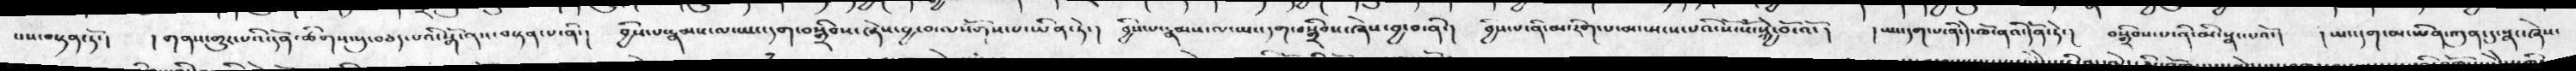པས་བསྟན་ཏོ་།  ། གནས་གྱུར་པའི་དོན་ཚིགས་སུ་བཅད་པའི་སྒོ་ནས་བསྟན་པ་ནི་།  བྱིས་པ་རྣམས་ལ་ཡང་དག་བསྒྲིབས་ཞེས་བྱ་བ་ལསོགས་པ་ཡིན་ཏེ་།  བྱིས་པ་རྣམས་ལ་ཡང་དག་སྒྲིབས་ཞེས་བྱ་བ་ནི་།  བྱིས་པ་ནི་མ་རིག་པ་མ་སྤངས་པའི་སོ་སོ་སྐྱེ་བོ་འོ་།  ། ཡང་དག་པ་ནི་དེ་ཁོ་ནའི་དོན་ཏེ་།  བསྒྲིབས་པ་ནི་མི་སྣང་པའོ་།  ། ཡང་དག་མ་ཡིན་ཀུན་དུ་སྣང་ཞེས་
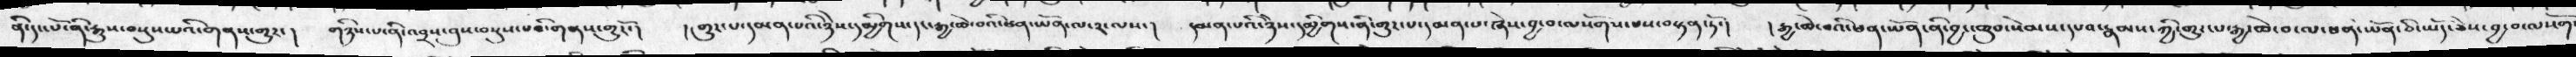ནི་དང་པོ་ནི་རྒྱུས་བསྡུས་པའི་གནས་གྱུར་།   གཉིས་པ་ནི་འབྲས་བུས་བསྡུས་པའི་གནས་གྱུརོ་།    ། གྱུར་པ་དམན་པའི་ཉེས་དམྱིགས་དང་རྒྱ་ཆེ་བའི་ཕན་ཡོན་ལ་༢་ལས་།    དམན་པའི་ཉེས་དམྱིགས་ནི་གྱུར་པ་དམན་པ་ཞེས་བྱ་བ་ལསོགས་པས་བསྟན་ཏོ་།   ། རྒྱ་ཆེ་བའི་ཕན་ཡོན་ནི་བྱང་ཆུབ་སེམས་དཔའ་རྣམས་ཀྱི་གྱུར་པ་རྒྱ་ཆེ་བ་ལ་ཕན་ཡོན་ཅི་ཡོད་ཅེས་བྱ་བ་ལསོགས
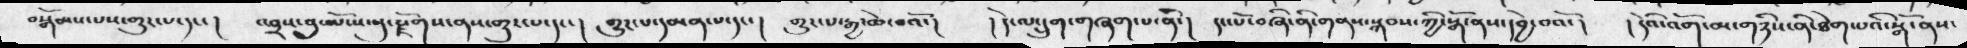བསྒོམས་པས་གྱུར་པ་དང་།   འབྲས་བུ་ཡོངས་སུ་རྗོགས་ནས་གྱུར་པ་དང་།   གྱུར་པ་དམན་པ་དང་།    གྱུར་པ་རྒྱ་ཆེ་བའོ་།    །  དེ་ལ་དྲུག་གཞག་པ་ནི་།   དང་པོ་བཞི་ནི་གནས་སྐབས་ཀྱི་སྒོ་ནས་དབྱེ་བའོ་།   ། དེའི་འོག་མ་གཉིས་ནི་ཐེག་པའི་སྒོ་ནས་
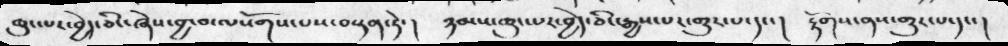ཆུང་པར་བྱེད་ཅིང་ཞེས་བྱ་བ་ལསོགས་པས་བསྟན་ཏེ་ །     ཉམས་ཆུང་པར་བྱེད་ཅིང་རྒྱས་པར་གྱུར་པ་དང་ །   རྟོགས་ནས་གྱུར་པ་དང་ །
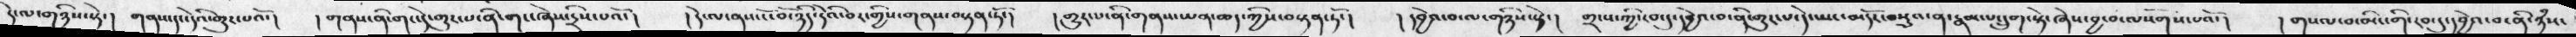དེ་ལ་གཉིས་སྟེ་།  གནས་དང་དེའི་གྱུར་པའོ་།   ། གནས་ནི་གང་དེ་གྱུར་པ་ནི་གང་ཞེས་དྲིས་པའོ་།    ། དེ་ལ་ནས་ངོ་བོ་ཉིད་དེའི་བར་གྱིས་གནས་བསྟན་ཏོ་།   ། གྱུར་པ་ནི་གནས་ཡན་ཆད་ཀྱིས་བསྟན་ཏོ་།     ། དབྱེའ་བ་ལ་གཉིས་སྟེ་།   གྲངས་ཀྱི་རབ་དུ་དབྱེའ་བ་ནི་གྱུར་པ་དེ་ཡང་མདོར་བསྡུའ་ན་རྣམ་པ་དྲུག་སྟེ་ཞེས་བྱ་བ་ལསོགས་པའོ་།     ། གསལ་བ་མིང་གི་རབ་དུདབྱེའ་བ་ནི་ཉཾས་
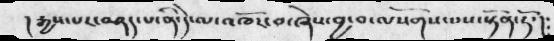།རྒྱས་པར་བཤད་པ་ནི་དེ་ལ་འཁོར་བ་ཞེས་བྱ་བ་ལསོགས་པས་སྟོན་ཏོ་།༴
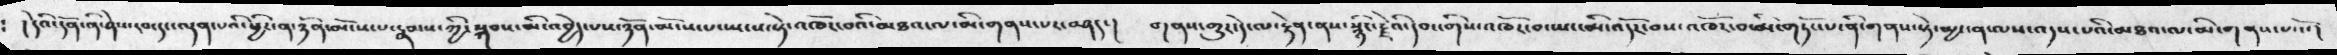༴ །དེའི་དོན་ནི་ཤེས་རབ་དང་ལྡན་པའི་ཕྱིར་ན་ཉོན་མོངས་པ་རྣམས་ཀྱི་སྐབས་མི་འབྱེད་པས་ཉོན་མོངས་པ་སྤངས་སྟེ་འཁོར་བའི་མཐའ་ལ་མི་གནས་པར་བཤད་། གནས་གྱུར་དེ་ལ་རྟེན་ནས་སྙིང་རྗེའི་དབང་གིས་འཁོར་བ་ཡང་མི་འདོར་བས་འཁོར་བ་མི་གཏོང་པ་ནི་གནས་སྟེ་མྱ་ངན་ལས་འདས་པའི་མཐའ་ལ་མི་གནས་པ་འོ་།
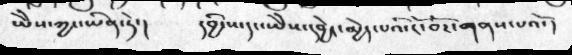ཡཻས་ཀྱང་ཡིན་ཏ་ེ།   དབྱིངས་དང་ཡཻས་དབྱེར་མྱེད་པའི་ངོ་བོར་གནས་པའོ་།
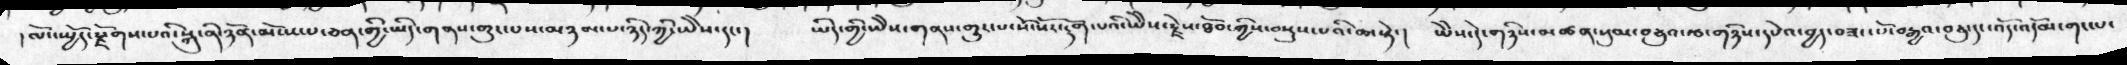།ལོང་སྤྱོད་རྫོགས་པའི་སྐུ་ནི་ཉོན་མོངས་པ་ཅན་གྱི་ཡིད་གནས་གྱུར་པས་མཉམ་པ་ཉིད་ཀྱི་ཡཻས་དང་།  ཡིད་གྱི་ཡཻས་གནས་གྱུར་པ་སོ་སོར་རྟོག་པའི་ཡཻས་རྗེས་ཐོབ་ཀྱི་བསྡུས་པའི་ཆ་སྟེ་།  ཡཻས་དེ་གཉིས་མཚན་སུམ་བཅུའ་རྩ་གཉིས་དཔེའ་བྱད་བཟང་པོ་བརྒྱའ་བཅུ་དང་འོད་འདོམ་གང་པ་
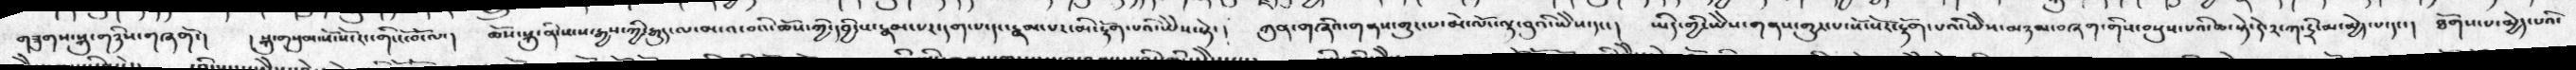གཟུགས་སྐུ་གཉིས་གཞགོ་།  །སྐུ་གསུམ་སོ་སོ་རང་གི་ངོ་བོ་ལ་།  ཆོས་སྐུ་ནི་སངས་རྒྱས་ཀྱི་རྒྱུད་ལ་མ་འ་བའི་ཆོས་ཀྱི་དབྱིངས་རྣམ་པར་དག་པ་དང་རྣམ་པར་མི་རྟོག་པའི་ཡཻས་དང་།  ཡིད་གྱི་ཡཻས་གནས་གྱུར་པ་སོ་སོར་རྟོག་པའི་ཡཻས་མཉམ་བཞག་གིས་བསུས་པའི་ཆ་སྟེ་དེ་༢་ཀ་དྲི་མ་མྱེད་པ་དང་།  ཐོགས་པ་མྱེད་པའི་
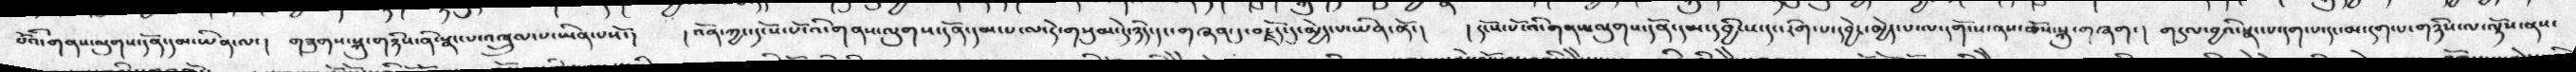བོའི་གནས་ལུགས་དོན་དམ་ཡིན་ལ་།    གཟུགས་སྐུ་གཉིས་སྣང་པ་འཁྲུལ་པ་ཡིན་པསོ་།   །འོན་ཀྱང་དངོས་པོ་འི་གནས་ལུགས་དོན་དམ་པ་ལ་དེ་གསུམ་དེ་ཉིད་དང་གཞན་དུ་བརྗོད་དུ་མྱེད་པ་ཡིན་ནོ་།  ། དངོས་པོ་འི་གནས་ལུགས་དོན་དམ་དབྱིངས་དང་རིག་པ་དབྱེར་མྱེད་པ་ལ་དགོངས་ནས་ཆོས་སྐུ་གཞག་།   གདུལ་བྱའི་སྣང་པ་དག་པ་དང་མ་དག་པ་གཉིས་ལ་ལྟོས་ནས་
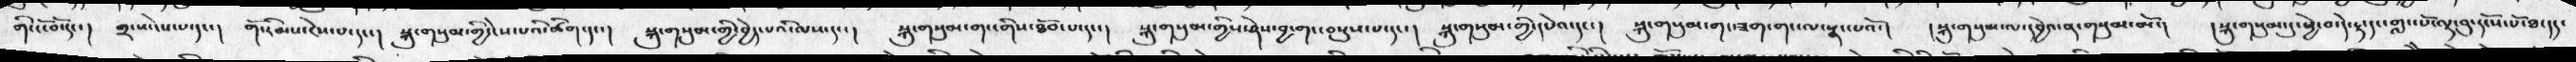གི་ངོ་བོ་དང་།  གྲངས་ངེས་པ་དང་།  གོ་རིམས་ངེས་པ་དང་།  སྐུ་གསུམ་གྱི་བྱེད་པའི་ལས་དང་།  སྐུ་གསུམ་གང་གིས་ཐོབ་པ་དང་། སྐུ་གསུམ་གྱིས་ཤེས་བྱ་གང་བསྡུས་པ་དང་། སྐུ་གསུམ་གྱི་དཔེའ་དང་།  སྐུ་གསུམ་གང་ཟག་གང་ལ་སྣང་པའོ་།  །སྐུ་གསུམ་ལ་དབྱེའ་ན་གསུམ་མོ་།  །སྐུ་གསུམ་དུ་ཕྱེ་བ་དེ་རྟ་དང་གླང་པོ་ལྟ་བུ་དངོས་པོ་ཐ་དད་
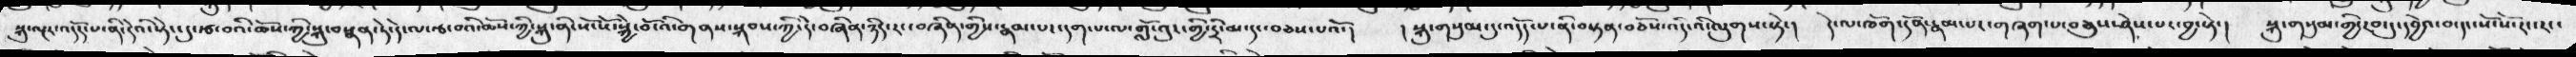སྐུ་ལྔར་འདོད་པ་ནི་དེའི་སྟེང་དུ་རྩ་བའི་ཆོས་ཀྱི་སྐུ་བསྣན་ཏེ་དེ་ལ་རྩ་བའི་ཆོས་ཀྱི་སྐུ་ནི་སོ་སོ་སྐྱེ་བོ་འི་གནས་སྐབས་ཀྱི་དེ་བཞིན་ཉིད་རང་བཞིན་གྱི་རྣམ་པར་དག་པ་ལ་གློ་འུར་གྱི་དྲི་མ་དང་བཅས་པའོ་།  །སྐུ་གསུམ་དུ་འདོད་པ་ནི་བསྟན་བཅོས་འདི་འི་ལུགས་སྟེ་།  དེ་ལ་ཁོག་དོན་རྣམ་པར་གཞག་པ་བཅུས་ཤེས་པར་བྱ་སྟེ་།  སྐུ་གསུམ་གྱི་རབ་དུ་དབྱེའ་བ་དང་སོ་སོ་རང་རང་
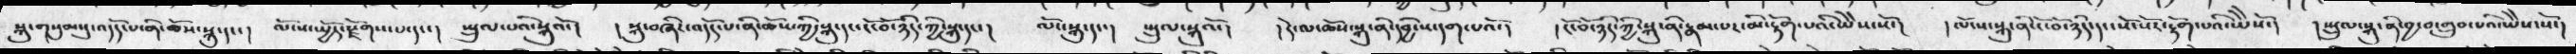སྐུ་གསུམ་དུ་འདོད་པ་ནི་ཆོས་སྐུ་དང་།  ལོངས་སྤྱོད་རྫོགས་པ་དང་།  སྤྲུལ་པའི་སྐུའོ་།  །སྐུ་བཞིར་འདོད་པ་ནི་ཆོས་ཀྱི་སྐུ་དང་ངོ་བོ་ཉིད་ཀྱི་སྐུ་དང་།  ལོང་སྐུ་དང་།  སྤྲུལ་སྐུའོ་།  །དེ་ལ་ཆོས་སྐུ་ནི་དབྱིངས་དག་པའོ་།  །ངོ་བོ་ཉིད་ཀྱི་སྐུ་ནི་རྣམ་པར་མི་རྟོག་པའི་ཡཻས་སོ་།  །ལོངས་སྐུ་ནི་ངོ་བོ་ཉིད་དང་སོ་སོར་རྟོག་པའི་ཡཻསོ་།  །སྤྲུལ་སྐུ་ནི་བྱ་བ་གྲུབ་པའི་ཡཻས་སོ་།
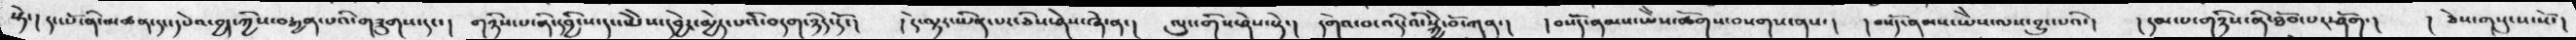སྟེ་། དང་པོ་ནི་མཚན་དང་དཔེའ་བྱད་ཀྱིས་བརྒྱན་པའི་གཟུགས་དང་།  གཉིས་པ་ནི་དབྱིངས་དང་ཡཻས་དབྱེར་མྱེད་པའི་བདག་ཉིད་དོ་།  །དེ་ལྟར་ཡིན་པ་ཅིས་ཤེས་ཞེ་ན་།  ལུང་གིས་ཤེས་སྟེ་།  །དགེ་བ་འདི་འི་སྐྱེ་བོ་ཀུན་། །བསོད་ནམས་ཡཻས་ཚོགས་བསགས་ནས་།  །བསོད་ནམས་ཡཻས་ལས་བྱུང་པའི་།  །དམ་པ་གཉིས་ནི་ཐོབ་པར་ཤོག་། །ཅེས་གསུངས་སོ་།
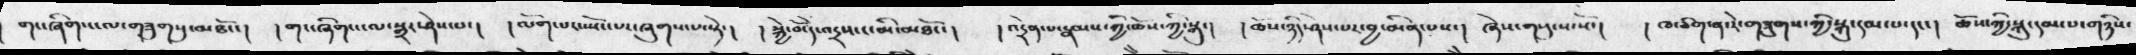གང་ཞིགས་ལ་གཟུགསུ་མཐོང་།  །གང་ཞིགས་ལ་སྒྲ་ཤེས་པ་།  །ལོག་པར་སྤོང་པར་ཞུགས་པ་སྟེ་། །སྐྱེ་མེད་འདྲས་ང་མི་མཐོང་། །འདྲེན་པ་རྣམས་ཀྱི་ཆོས་ཀྱི་སྐུ་། །ཆོས་ཉིད་ཤེས་པར་བྱ་མིན་པས་།  ཞེས་གསུངས་སོ་།  །ཁ་ཅིག་ན་རེ་གཟུགས་ཀྱི་སྐུ་དམ་པ་དང་།  ཆོས་ཀྱི་སྐུ་དམ་པ་གཉིས་
